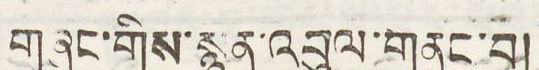གཞུང་གིས་སྙན་འབུལ་གནང་བ།
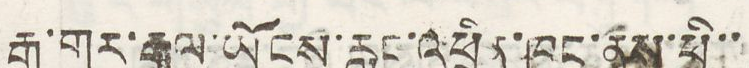རྒྱ་གར་རྒྱལ་ཡོངས་རླུང་འཕྲིན་ཁང་ནས་ཕྱི་་
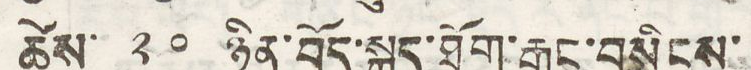ཚེས་ ༢༠ ཉིན་བོད་སྐད་ཐོག་རྒྱང་བསྲིངས་
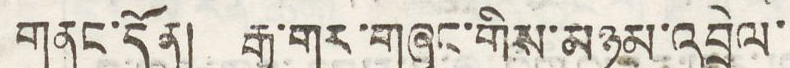གནང་དོན། རྒྱ་གར་གཞུང་གིས་མཉམ་འབྲེལ་
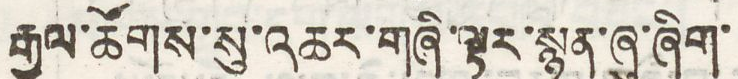རྒྱལ་ཚོགས་སུ་འཆར་གཞི་ལྟར་སྙན་ཞུ་ཞིག་
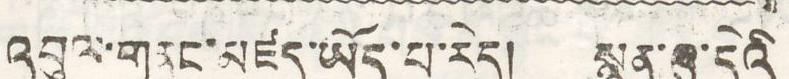འབུལ་གནང་མཛད་ཡོད་པ་རེད། སྙན་ཞུ་དེའི
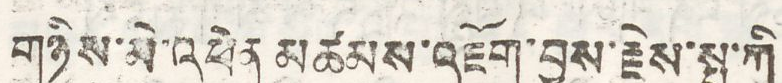གཉིས་མེ་འཕེན མཚམས་འཇོག་བྱས་རྗེས་སྤ་ཀི
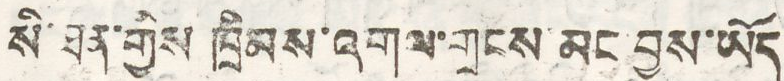སི་ཐན་གྱིས་ཁྲིམས་འགལ་གྲངས མང་བྱས་ཡོད
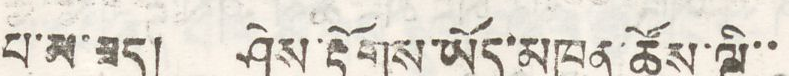པ་མ་ཟད། ཤེས་རྟོགས་ཡོད་མཁན་ཚོས་ལྡི་་
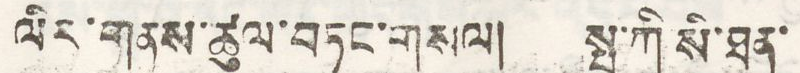ལིར་གནས་ཚུལ་བཏང་གསལ། སྤ་ཀི སི་ཐན་
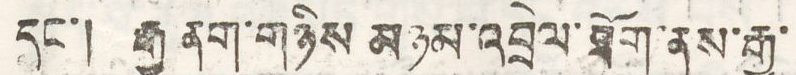དང་། རྒྱ ནག་གཉིས མཉམ་འབྲེལ་ཐོག་ནས་རྒྱ་
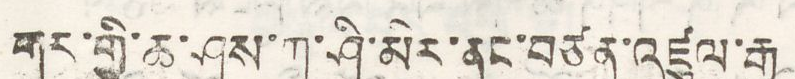གར་གྱི་ཆ་ཤས་ཀ་ཤི་མིར་ནང་བཙན་འཛུལ་རྒྱ
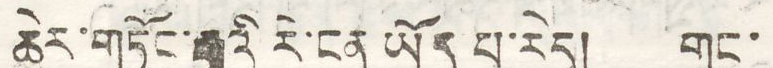ཆེར་གཏོང་རྒྱུའི་རེ་ངན ཡོད པ་རེད། གང་
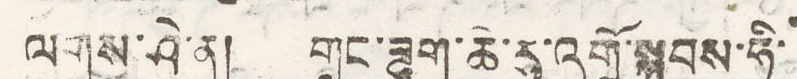ལགས་ཤེ་ན། གྲང་ཟུག་ཆེ་རུ་འགྲོ་སྐབས་ཧི་
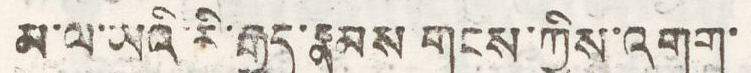མ་ལ་ཡའི་རི་རྒྱུད་རྣམས གངས་ཀྱིས་འགག་
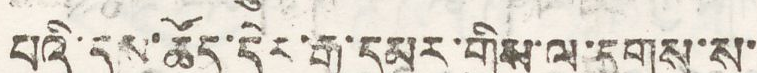པའི་དུས་ཚོད་དེར་རྒྱ་དམར་གྱིས་ལ་དྭགས་ས་
